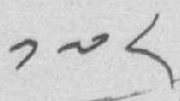༡༧༨
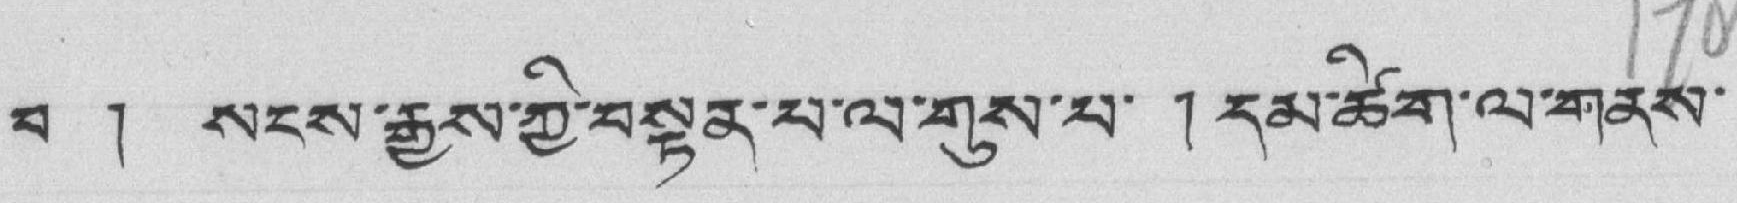བ ། སངས་རྒྱུས་ཀྱི་བསྟན་པ་ལ་གུས་པ་ ། དམ་ཚིག་ལ་གནས་
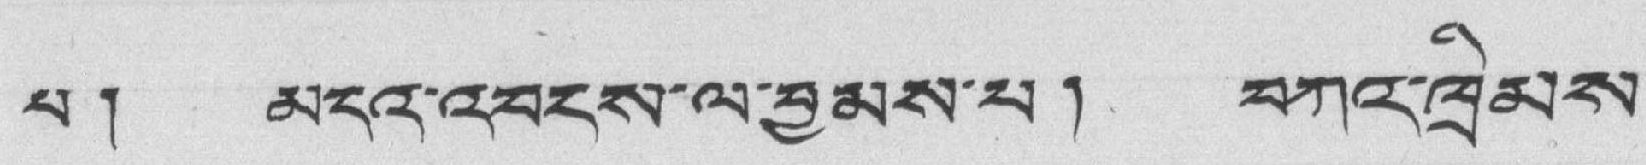པ། མངའ་འབངས་ལ་བྱམས་པ། བཀའ་ཁྲིམས་
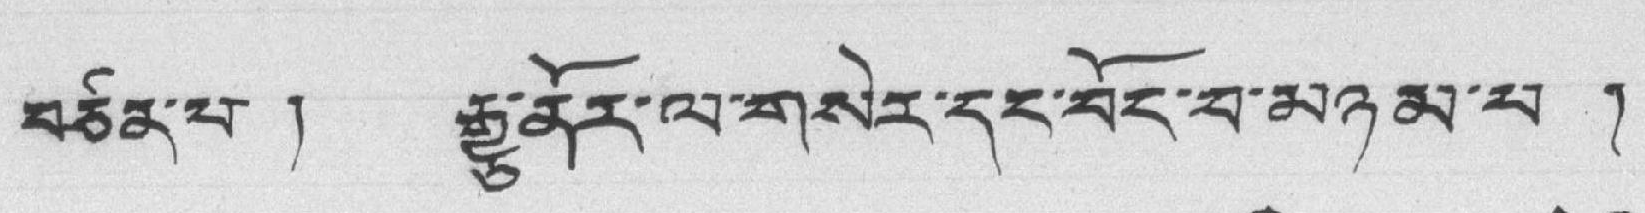བཙན་པ ། རྒྱུ་ནོར་ལ་གསེར་དང་བོད་པ་མཉམ་པ །
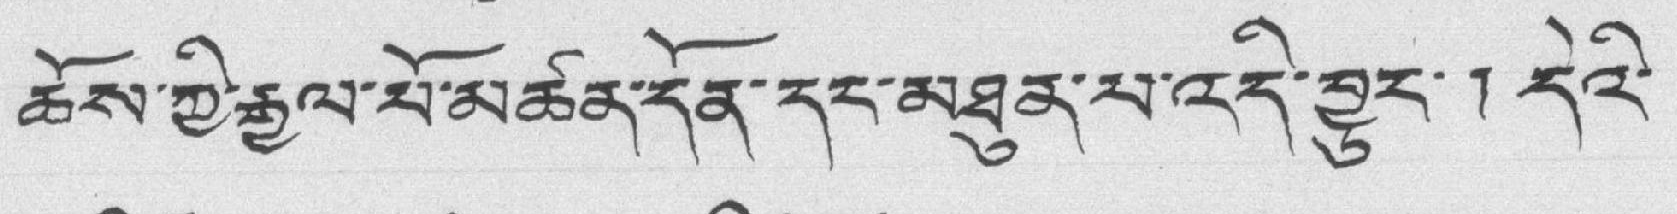ཆོས་ཀྱི་རྒྱལ་པོ་མཚན་དོན་དང་མཐུན་པ་འདི་བྱུང་། དེའི་
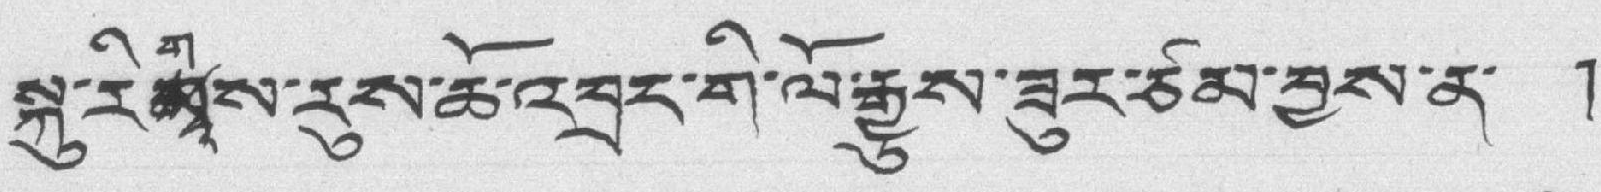སྐུ་རིགམས་རུས་ཆོ་འབྲང་གི་ལོ་རྒྱུས་ཟུར་ཙམ་བྱས་ན་ །
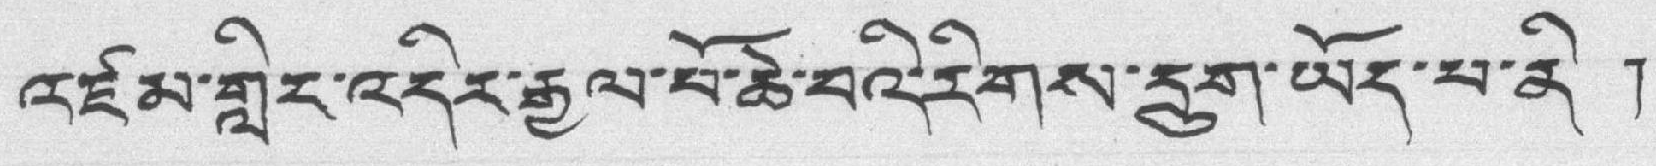འཛམ་གླིང་འདིར་རྒྱལ་པོ་ཆེ་བའི་རིགས་དྲུག་ཡོད་པ་ནི །
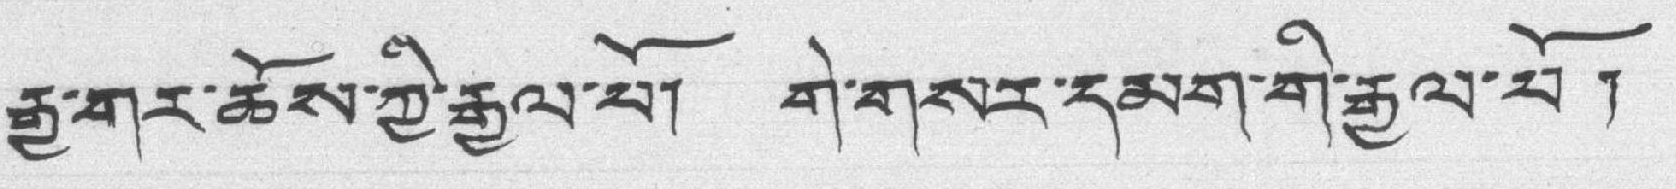རྒྱ་གར་ཆོས་ཀྱི་རྒྱལ་པོ། གེ་གསར་དམག་གི་རྒྱལ་པོ །
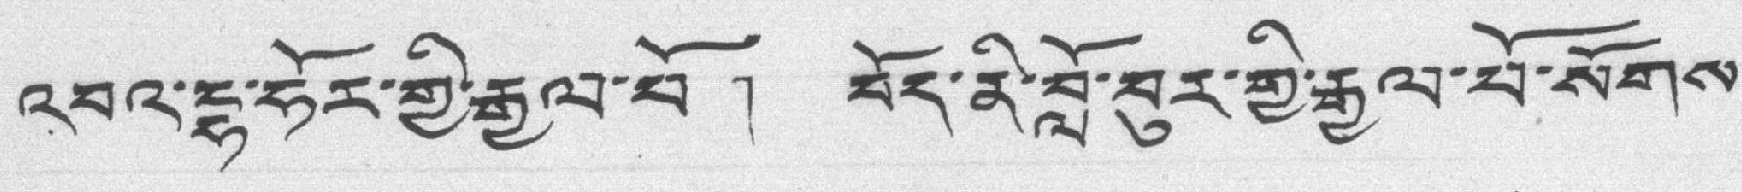འབའ་དྷ་ཧོར་གྱི་རྒྱལ་པོ། བོད་ནི་བློ་བུར་གྱི་རྒྱལ་པོ་སོགས་
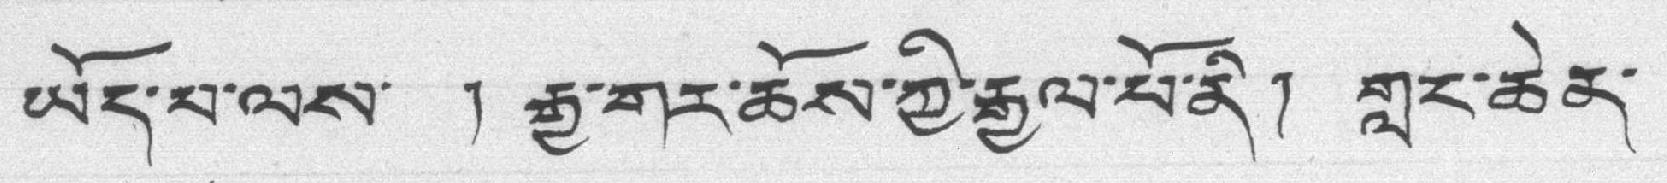ཡོད་པ་ལས་ ། རྒྱ་གར་ཆོས་ཀྱི་རྒྱལ་པོ་ནི། གླང་ཆེན་
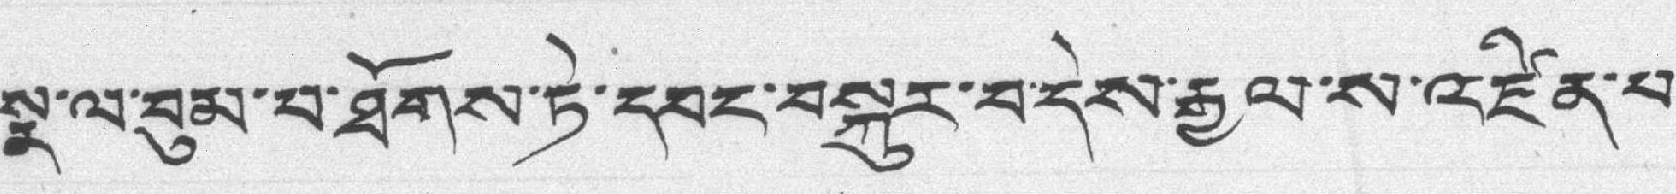སྣ་ལ་བུམ་པ་ཐོགས་ཏེ་དབང་བསྐུར་བ་དེས་རྒྱལ་ས་འཛིན་པ་
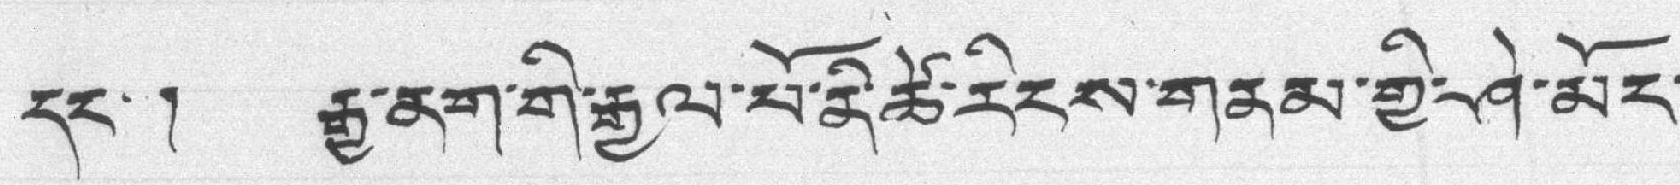དང་། རྒྱ་ནག་གི་རྒྱལ་པོ་ནེ་ཚེ་རིངས་གནམ་གྱི་ཤེ་མོང་
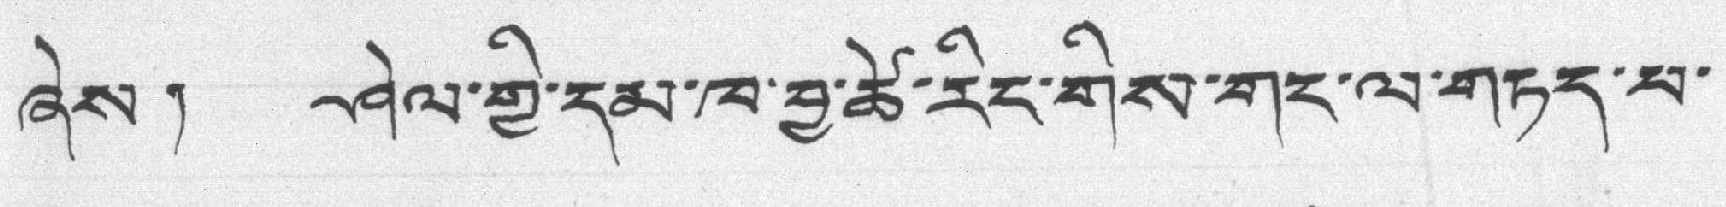ཞེས། ཤེལ་གྱི་དམ་ཁ་བྱ་ཚེ་རིང་གིས་གང་ལ་གཏད་པ་
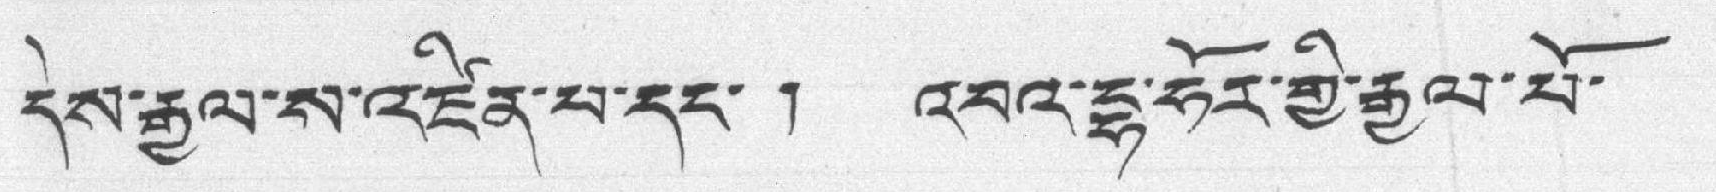དེས་རྒྱལ་ས་འཛིན་པ་དང་། འབའ་དྷ་ཧོར་གྱི་རྒྱལ་པོ་
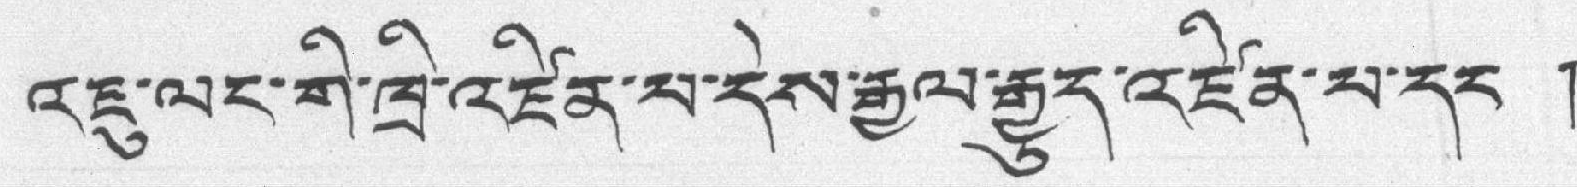འཇུ་ལང་གི་ཁྲི་འཛིན་པ་དེས་རྒྱལ་རྒྱུད་འཛིན་པ་དང །
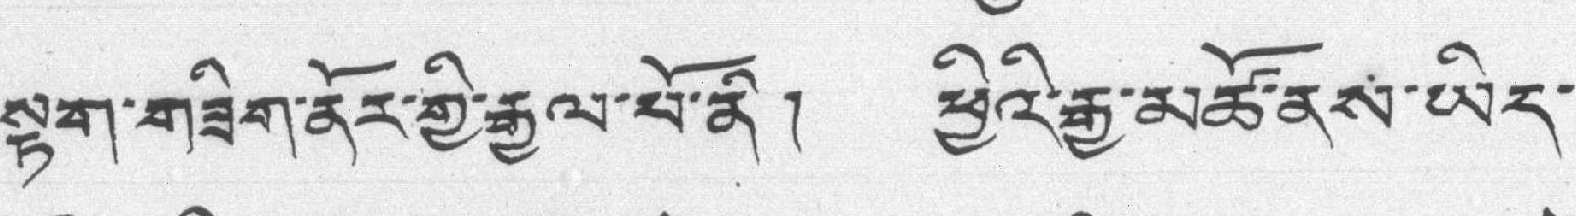སྙག་གཟིག་ནོར་གྱི་རྒྱལ་པོ་ནི། ཕྱིའི་རྒྱ་མཚོ་ནས་ཡིད་
